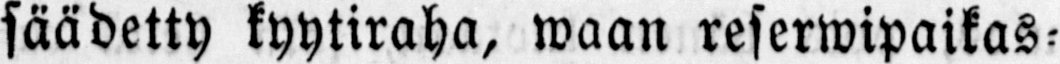säädetty kyytiraha, waan reserwipaikas-
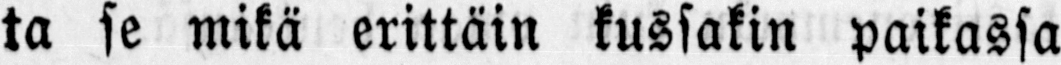ta se mikä erittäin kussakin paikassa
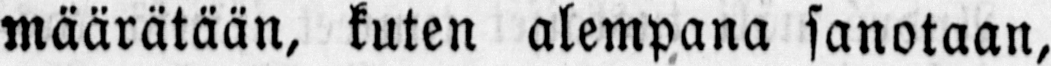määrätään, kuten alempana sanotaan,
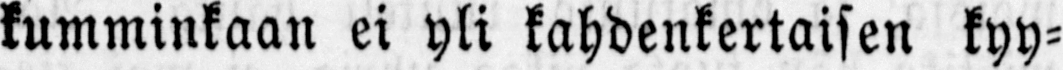kumminkaan ei yli kahdenkertaisen kyy-
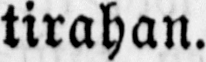tirahan.
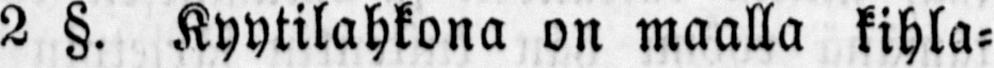2 §. Kyytilahkona on maalla kihla-
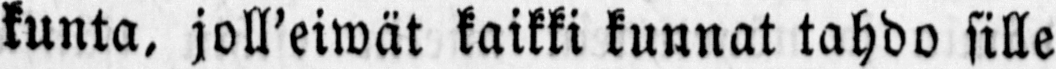kunta, joll'eiwät kaikki kunnat tahdo sille
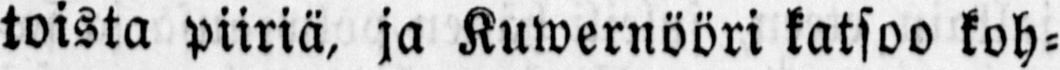toista piiriä, ja Kuwernööri katsoo koh-
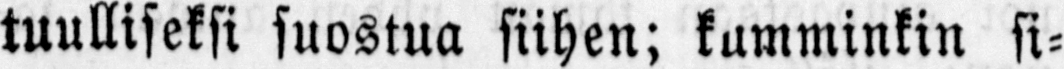tuulliseksi suostua siihen; kumminkin si-
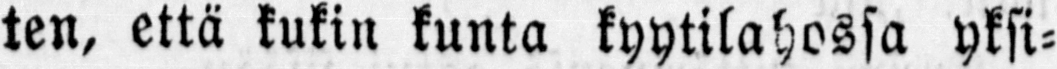ten, että kukin kunta kyytilahossa yksi-
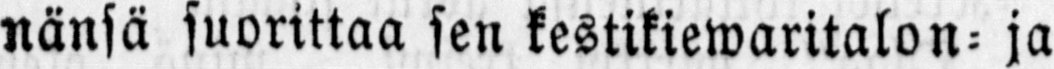nänsä suorittaa sen kestikiewaritalon- ja
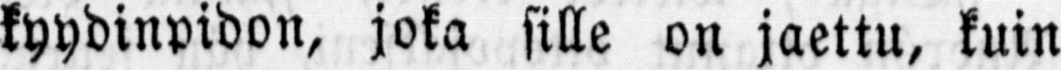kyydinpidon, joka sille on jaettu, kuin
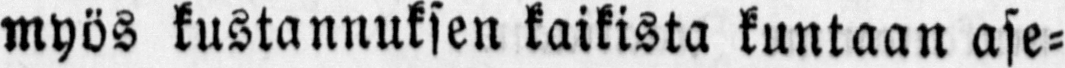myös kustannuksen kaikista kuntaan ase-
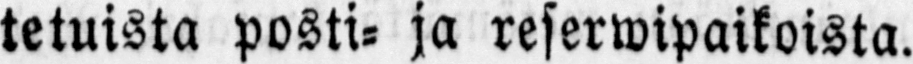tetuista posti- ja reserwipaikoista.
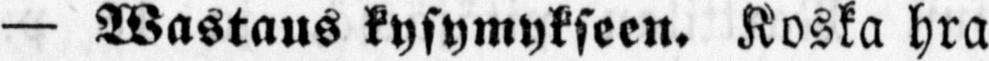— Wastaus kysymykseen. Koska hra
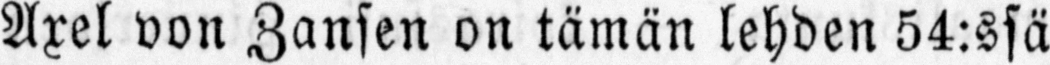Axel von Zansen on tämän lehden 54:ssä
